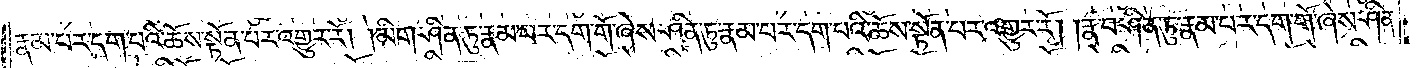རྣམ་པར་དག་པའི་ཆོས་སྟོན་པར་འགྱུར་རོ། །མིག་ཤིན་ཏུ་རྣམ་པར་དག་གོ་ཞེས་ཤིན་ཏུ་རྣམ་པར་དག་པའི་ཆོས་སྟོན་པར་འགྱུར་རོ། །རྣ་བ་ཤིན་ཏུ་རྣམ་པར་དག་གོ་ཞེས་ཤིན་
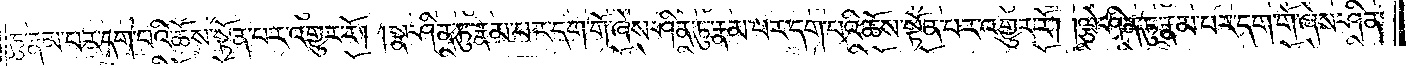ཏུ་རྣམ་པར་དག་པའི་ཆོས་སྟོན་པར་འགྱུར་རོ། །སྣ་ཤིན་ཏུ་རྣམ་པར་དག་གོ་ཞེས་ཤིན་ཏུ་རྣམ་པར་དག་པའི་ཆོས་སྟོན་པར་འགྱུར་རོ། །ལྕེ་ཤིན་ཏུ་རྣམ་པར་དག་གོ་ཞེས་ཤིན་
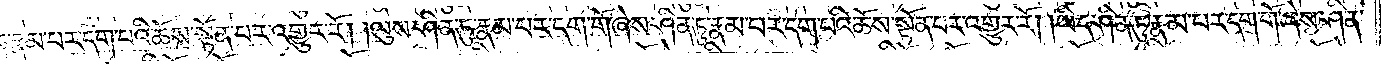ཏུ་རྣམ་པར་དག་པའི་ཆོས་སྟོན་པར་འགྱུར་རོ། །ལུས་ཤིན་ཏུ་རྣམ་པར་དག་གོ་ཞེས་ཤིན་ཏུ་རྣམ་པར་དག་པའི་ཆོས་སྟོན་པར་འགྱུར་རོ། །ཡིད་ཤིན་ཏུ་རྣམ་པར་དག་གོ་ཞེས་ཤིན་
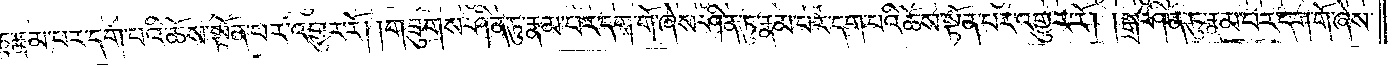ཏུ་རྣམ་པར་དག་པའི་ཆོས་སྟོན་པར་འགྱུར་རོ། །གཟུགས་ཤིན་ཏུ་རྣམ་པར་དག་གོ་ཞེས་ཤིན་ཏུ་རྣམ་པར་དག་པའི་ཆོས་སྟོན་པར་འགྱུར་རོ། །སྒྲ་ཤིན་ཏུ་རྣམ་པར་དག་གོ་ཞེས་
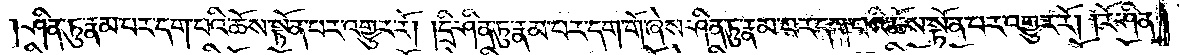ཤིན་ཏུ་རྣམ་པར་དག་པའི་ཆོས་སྟོན་པར་འགྱུར་རོ། །དྲི་ཤིན་ཏུ་རྣམ་པར་དག་གོ་ཞེས་ཤིན་ཏུ་རྣམ་པར་དག་པའི་ཆོས་སྟོན་པར་འགྱུར་རོ། །རོ་ཤིན་
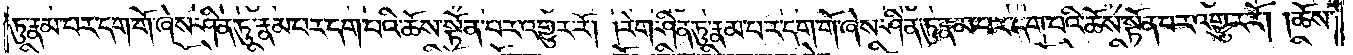ཏུ་རྣམ་པར་དག་གོ་ཞེས་ཤིན་ཏུ་རྣམ་པར་དག་པའི་ཆོས་སྟོན་པར་འགྱུར་རོ། །རེག་ཤིན་ཏུ་རྣམ་པར་དག་གོ་ཞེས་ཤིན་ཏུ་རྣམ་པར་དག་པའི་ཆོས་སྟོན་པར་འགྱུར་རོ། །ཆོས་
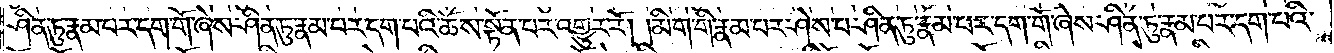ཤིན་ཏུ་རྣམ་པར་དག་གོ་ཞེས་ཤིན་ཏུ་རྣམ་པར་དག་པའི་ཆོས་སྟོན་པར་འགྱུར་རོ། །མིག་གི་རྣམ་པར་ཤེས་པ་ཤིན་ཏུ་རྣམ་པར་དག་གོ་ཞེས་ཤིན་ཏུ་རྣམ་པར་དག་པའི་
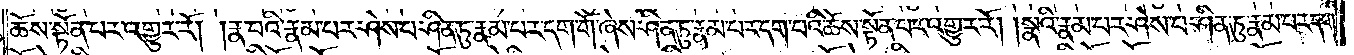ཆོས་སྟོན་པར་འགྱུར་རོ། །རྣ་བའི་རྣམ་པར་ཤེས་པ་ཤིན་ཏུ་རྣམ་པར་དག་གོ་ཞེས་ཤིན་ཏུ་རྣམ་པར་དག་པའི་ཆོས་སྟོན་པར་འགྱུར་རོ། །སྣའི་རྣམ་པར་ཤེས་པ་ཤིན་ཏུ་རྣམ་པར་དག་
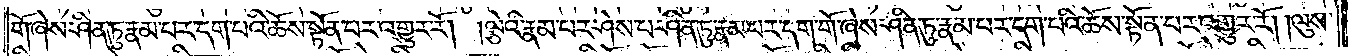གོ་ཞེས་ཤིན་ཏུ་རྣམ་པར་དག་པའི་ཆོས་སྟོན་པར་འགྱུར་རོ། །ལྕེའི་རྣམ་པར་ཤེས་པ་ཤིན་ཏུ་རྣམ་པར་དག་གོ་ཞེས་ཤིན་ཏུ་རྣམ་པར་དག་པའི་ཆོས་སྟོན་པར་འགྱུར་རོ། །ལུས་
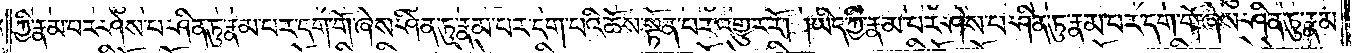ཀྱི་རྣམ་པར་ཤེས་པ་ཤིན་ཏུ་རྣམ་པར་དག་གོ་ཞེས་ཤིན་ཏུ་རྣམ་པར་དག་པའི་ཆོས་སྟོན་པར་འགྱུར་རོ། །ཡིད་ཀྱི་རྣམ་པར་ཤེས་པ་ཤིན་ཏུ་རྣམ་པར་དག་གོ་ཞེས་ཤིན་ཏུ་རྣམ་
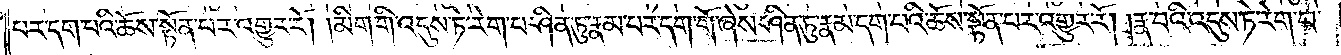པར་དག་པའི་ཆོས་སྟོན་པར་འགྱུར་རོ། །མིག་གི་འདུས་ཏེ་རེག་པ་ཤིན་ཏུ་རྣམ་པར་དག་གོ་ཞེས་ཤིན་ཏུ་རྣམ་པར་དག་པའི་ཆོས་སྟོན་པར་འགྱུར་རོ། །རྣ་བའི་འདུས་ཏེ་རེག་པ་
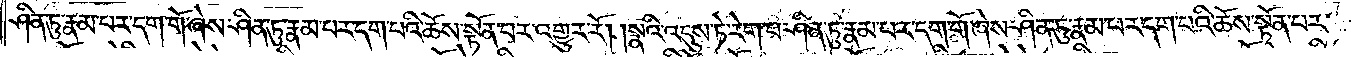ཤིན་ཏུ་རྣམ་པར་དག་གོ་ཞེས་ཤིན་ཏུ་རྣམ་པར་དག་པའི་ཆོས་སྟོན་པར་འགྱུར་རོ། །སྣའི་འདུས་ཏེ་རེག་པ་ཤིན་ཏུ་རྣམ་པར་དག་གོ་ཞེས་ཤིན་ཏུ་རྣམ་པར་དག་པའི་ཆོས་སྟོན་པར་
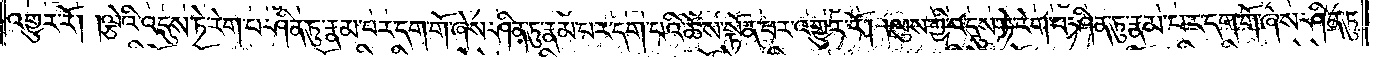འགྱུར་རོ། །ལྕེའི་འདུས་ཏེ་རེག་པ་ཤིན་ཏུ་རྣམ་པར་དག་གོ་ཞེས་ཤིན་ཏུ་རྣམ་པར་དག་པའི་ཆོས་སྟོན་པར་འགྱུར་རོ། །ལུས་ཀྱི་འདུས་ཏེ་རེག་པ་ཤིན་ཏུ་རྣམ་པར་དག་གོ་ཞེས་ཤིན་ཏུ་
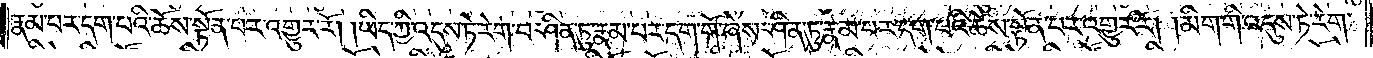རྣམ་པར་དག་པའི་ཆོས་སྟོན་པར་འགྱུར་རོ། །ཡིད་ཀྱི་འདུས་ཏེ་རེག་པ་ཤིན་ཏུ་རྣམ་པར་དག་གོ་ཞེས་ཤིན་ཏུ་རྣམ་པར་དག་པའི་ཆོས་སྟོན་པར་འགྱུར་རོ། །མིག་གི་འདུས་ཏེ་རེག་
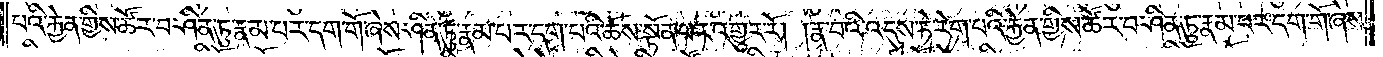པའི་རྐྱེན་གྱིས་ཚོར་བ་ཤིན་ཏུ་རྣམ་པར་དག་གོ་ཞེས་ཤིན་ཏུ་རྣམ་པར་དག་པའི་ཆོས་སྟོན་པར་འགྱུར་རོ། །རྣ་བའི་འདུས་ཏེ་རེག་པའི་རྐྱེན་གྱིས་ཚོར་བ་ཤིན་ཏུ་རྣམ་པར་དག་གོ་ཞེས་
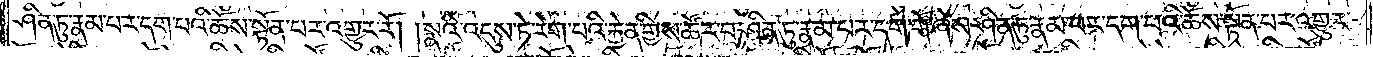ཤིན་ཏུ་རྣམ་པར་དག་པའི་ཆོས་སྟོན་པར་འགྱུར་རོ། །སྣའི་འདུས་ཏེ་རེག་པའི་རྐྱེན་གྱིས་ཚོར་བ་ཤིན་ཏུ་རྣམ་པར་དག་གོ་ཞེས་ཤིན་ཏུ་རྣམ་པར་དག་པའི་ཆོས་སྟོན་པར་འགྱུར་
